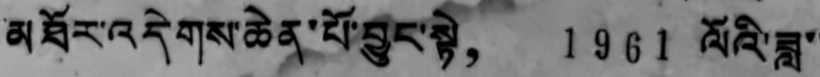མཐོར་འདེགས་ཆེན་པོ་བྱུང་སྟེ， 1961 ལོའི་ཟླ་་
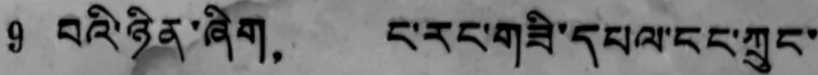9 བའི་ཉིན་ཞིག， ང་རང་གཟི་དཔལ་ངང་ཀྲུང་
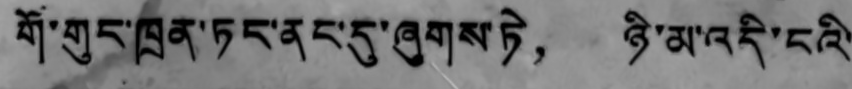གོ་གུང་ཁྲན་ཏང་ནང་དུ་ཞུགས་ཏེ， ཉི་མ་འདི་ངའི་
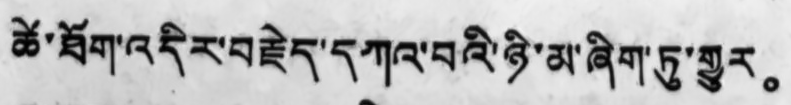ཚེ་ཐོག་འདིར་བརྗེད་དཀའ་བའི་ཉི་མ་ཞིག་ཏུ་གྱུར。
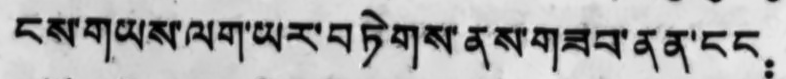ངས་གཡས་ལག་ཡར་བཏེགས་ནས་གཟབ་ནན་ངང：
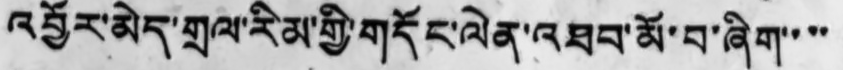འབྱོར་མེད་གྲལ་རིམ་གྱི་གདོང་ལེན་འཐབ་མོ་བ་ཞིག་་་་
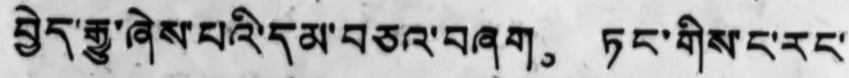བྱེད་རྒྱུ་ཞེས་པའི་དམ་བཅའ་བཞག。 ཏང་གིས་ང་རང་
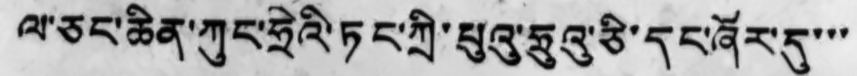ལ་ཅང་ཆིན་ཀུང་ཧྲེའི་ཏང་ཀྲི་པུའུ་ཧྲུའུ་ཅི་དང་ཞོར་དུ་་་་
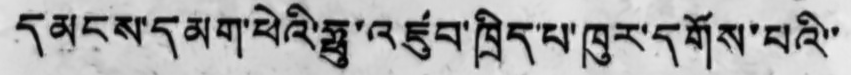དམངས་དམག་ཕེའི་ཧྥུ་འཛུབ་ཁྲིད་པ་ཁུར་དགོས་པའི་་
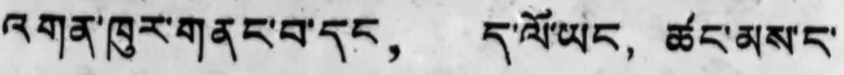འགན་ཁུར་གནང་བ་དང， ད་ལོ་ཡང， ཚང་མས་ང་
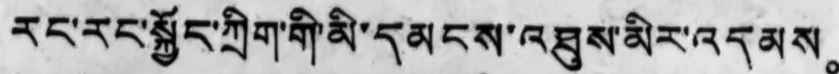རང་རང་སྐྱོད་ཀྲིག་གི་མི་དམངས་འཐུས་མིར་འདམས。
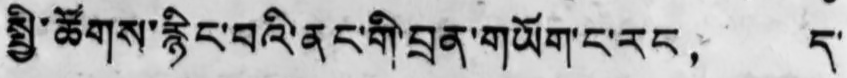སྤྱི་ཚོགས་རྙིང་བའི་ནང་གི་བྲན་གཡོག་ང་རང， ད་
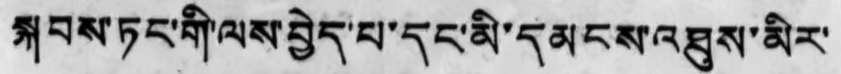སྐབས་ཏང་གི་ལས་བྱེད་པ་དང་མི་དམངས་འཐུས་མིར་
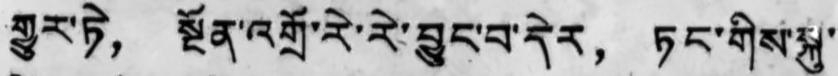གྱུར་ཏེ， སྔོན་འགྲོ་རེ་རེ་བྱུང་བ་དེར， ཏང་གིས་སྐུ་
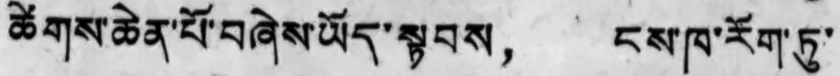ཚེགས་ཆེན་པོ་བཞེས་ཡོད་སྟབས， ངས་ཁ་རོག་ཏུ་
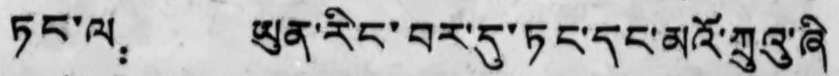ཏང་ལ： ཡུན་རིང་བར་དུ་ཏང་དང་མའོ་ཀྲུའུ་ཞི
